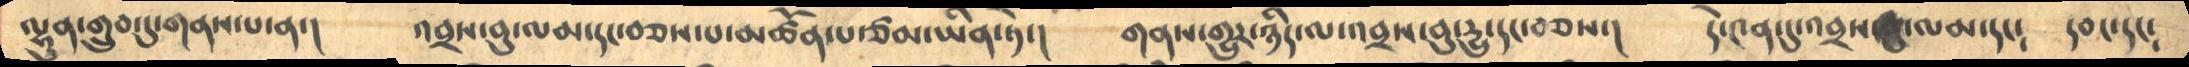ལྷུན་གྲུབ་དུ་གནས་པ་ན་།  འབྲས་བུ་ལམ་དང་བཅས་པ་མཚོན་པ་ཙམ་ཡིན་ཏེ་།  གནས་གྱུར་ཉིད་ལ་འབྲས་བུ་དྱུ་དང་བཅས་།  དེ་༤ན་དུ་འབྲས་ལམ་དང༴  དབང་དང༴
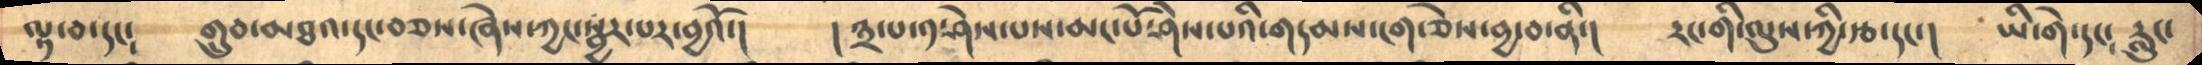ལྟ་བ་དང༴ གྲུབ་མཐའ་དང་བཅས་ཞེས་ཀྱང་སྦྱར་པར་བྱའོ་། །༣་པ་༡་ཤེས་པས་མང་པོ་ཤེས་པའི་གདམས་ངག་ཅེས་བྱ་བ་ནི་། རང་གི་ལུས་ཀྱི་རྩ་དང་། ཡི་གེ་དང༴ རླུང་
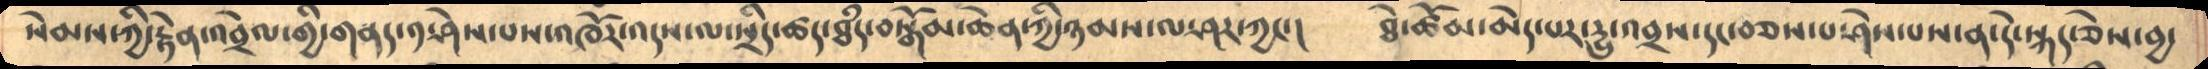སེམས་ཀྱི་རྟེན་འབྲེལ་གྱི་གནད་༡་ཤེས་པས་འཁོར་འདས་ལ་སྲིད་ཚད་ཐྃད་བསྒོམ་ཆེན་ཀྱི་ཉམས་ལ་ཤར་ཀྱང་། ཐེ་ཚོམ་མེད་པར་དྱུ་འབྲས་དང་བཅས་པ་ཤེས་པས་ན་དེ་སྐད་ཅེས་བྱ་
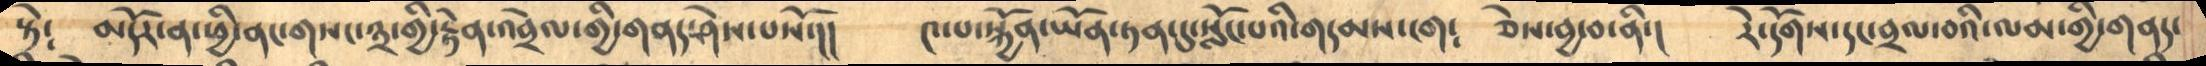སྟེ༴ མདོར་ན་ཕྱི་ནང་གསང་༣་གྱི་རྟེན་འབྲེལ་གྱི་གནད་ཤེས་པསོ་།།  ༤་པ་སྐྱོན་ཡོན་ཏན་དུ་སློང་པའི་གདམས་ངག༴ ཅེས་བྱ་བ་ནི་། རེ་དོགས་དང་བྲལ་བའི་ལམ་གྱི་གནད་
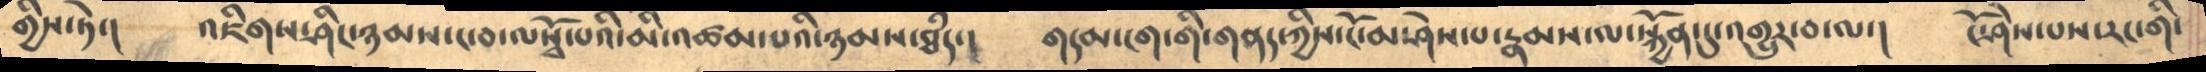གྱིས་ཏེ་། འཇིགས་ཤིང་ཉམས་ང་བ་ལསྭོ་པའི་མི་འཚམ་པའི་ཉམས་ཐྃད་།  གདམ་ངག་གི་གནད་ཀྱིས་ངོ་མ་ཤེས་པ་རྣམས་ལ་སྐྱོན་དུ་འགྱུར་བ་ལ་། ངོ་ཤེས་པས་རང་གི་
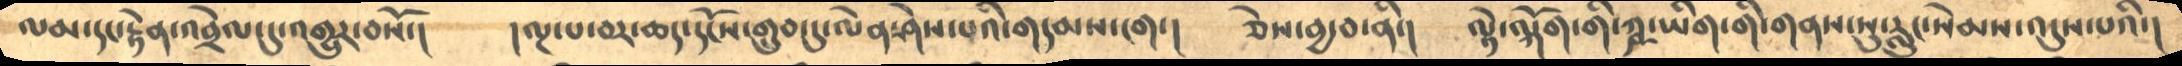ལམ་དང་རྟེན་འབྲེལ་དུ་འགྱུར་བསོ་།  །ལྔ་པ་བར་ཆད་དངོས་གྲུབ་དུ་ལེན་ཤེས་པའི་གདམས་ངག་། ཅེས་བྱ་བ་ནི་། ལྟེ་ལྐོག་གི་ཀྴ་ཡིག་གི་གནས་སུ་རླུང་སེམས་འདུས་པའི་།
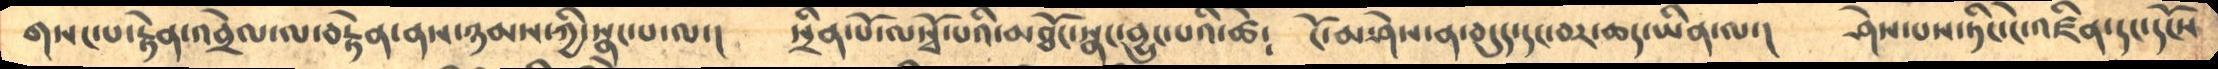གསང་པ་རྟེན་འབྲེལ་ལ་བརྟེན་ནས་ཉམས་ཀྱི་སྣང་པ་ལ་།  སྲིན་པོ་ལསྭོ་པའི་མཐོང་སྣང་བྱུང་པའི་ཚེ༴ ངོ་མ་ཤེས་ན་བདུད་དང་བར་ཆད་ཡིན་ལ་། ཤེས་པས་ཏིང་ངེ་འཛིན་དང་དངོས
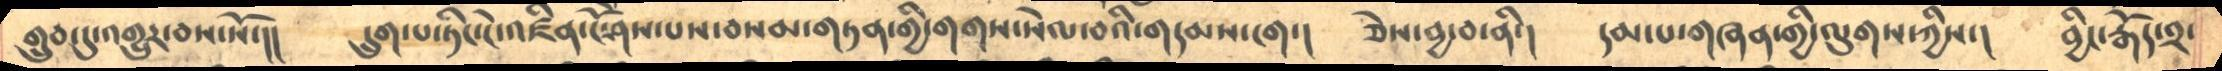གྲུབ་དུ་འགྱུར་བས་སོ་།།  དྲུག་པ་ཏིང་ངེ་འཛིན་ངོ་ཤེས་པས་བསམ་གཏན་གྱི་གགས་སེལ་བའི་གདམས་ངག་། ཅེས་བྱ་བ་ནི་། དམ་པ་གཞན་གྱི་ལུགས་ཀྱིས་། བྱིང་རྒོད་༢་
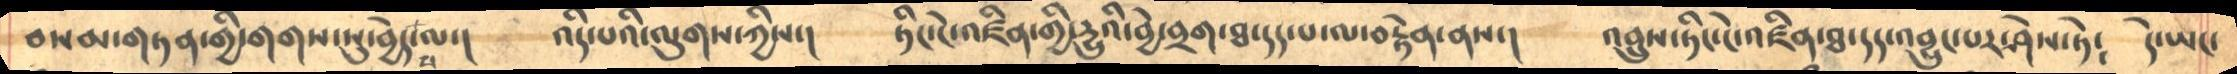བསམ་གཏན་གྱི་གགས་སུ་བྱེད་པ་ལ་།  འདི་པའི་ལུགས་ཀྱིས་།  ཏིང་ངེ་འཛིན་གྱི་དྱུའི་བྱེ་བྲག་ཐ་དད་པ་ལ་བརྟེན་ནས་།  འབྲུས་ཏིང་ངེ་འཛིན་ཐ་དད་འབྱུང་པར་ཤེས་ཏེ༴  དེ་ཡང་
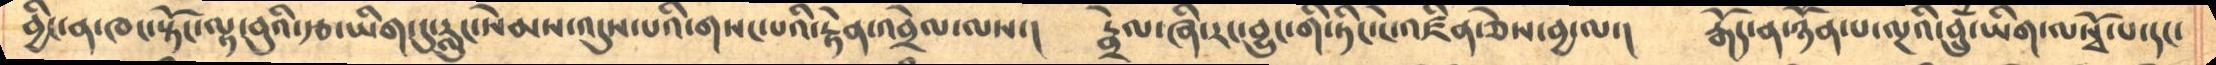བྱིང་ན་ཁང་སྟོང་ལྟ་བུའི་རྩ་ཡིག་དུ་རླུང་སེམས་འདུས་པའི་གསང་པའི་རྟེན་འབྲེལ་ལས་།    རྦྲེལ་ཞི་རང་བྱུང་གི་ཏིང་ངེ་འཛིན་ཅེས་བྱ་ལ་།  རྒོད་ན་ཉོན་པ་ལྔའི་བྲུཾ་ཡིག་ལསྭོ་པ་དང་
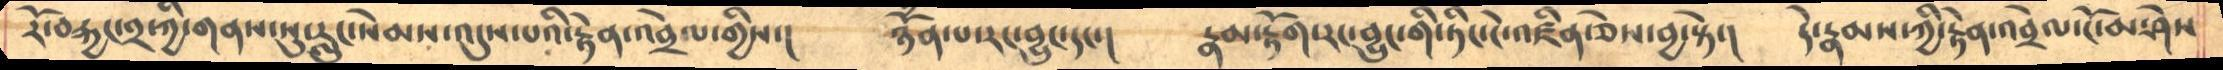རོ་བརྐྱང་༢་ཀྱི་གནས་སུ་རླུང་སེམས་འདུས་པའི་རྟེན་འབྲེལ་གྱིས་།     ཉོཾན་པ་རང་བྱུང་དང་།    རྣམ་རྟོག་རང་བྱུང་གི་ཏིང་ངེ་འཛིན་ཅེས་བྱ་སྟེ་།    དེ་རྣམས་ཀྱི་རྟེན་འབྲེལ་ངོ་མ་ཤེས
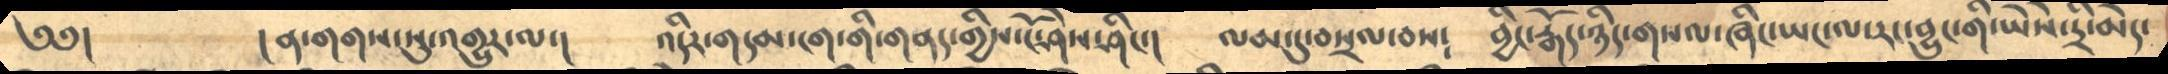༄༅།      ། ན་གགས་སུ་འགྱུར་ལ་།     འདིར་གདམ་ངག་གི་གནད་གྱིས་ངོ་ཤེས་ཤིང་།     ལམ་དུ་བསྲལ་བས༴     བྱིང་རྒོད་ཉིད་གསལ་ཞིང་ཡང་ལ་རང་བྱུང་གི་ཡཻས་དྲི་མེད་
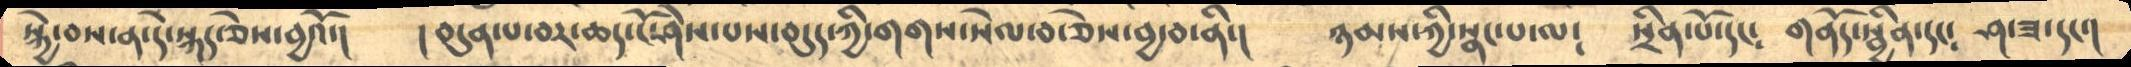སྐྱེ་བས་ན་དེ་སྐད་ཅེས་བྱའོ་།     ། བདུན་པ་བར་ཆད་ངོ་ཤེས་པས་བདུད་ཀྱི་གགས་སེལ་བ་ཅེས་བྱ་བ་ནི་།   ཉམས་ཀྱི་སྣང་པ་ལ༴    སྲིན་པོ་དང༴   གནོད་སྦྱིན་དང༴    ཤ་ཟ་དང་།
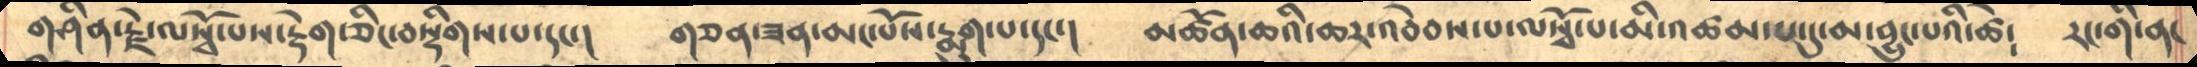གཤིན་རྗེ་ལསྭོ་པས་རྡེག་ཅིང་བསྡིགས་པ་དང་།      གཅན་ཟན་མང་པོས་རྨུག་པ་དང་།   མཚོན་ཆའི་ཆར་འབེབས་པ་ལསྭོ་པ་མི་འཚམ་པ་དུ་མ་བྱུང་པའི་ཚེ༴  རང་གི་ན་
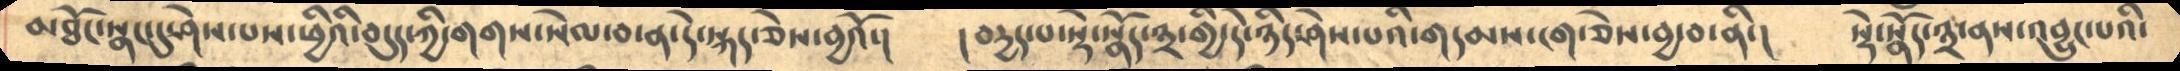མཐོང་སྣང་དུ་ཤེས་པས་ཕྱིའི་བདུད་ཀྱི་གགས་སེལ་བ་ན་དེ་སྐད་ཅེས་བྱའོ་།     ། བདྱད་པ་སྡེ་སྣོད་༣་གྱི་དེ་ཉིད་ཤེས་པའི་གདམས་ངག་ཅེས་བྱ་བ་ནི་།    སྡེ་སྣོད་༣་ནས་འབྱུང་པའི་
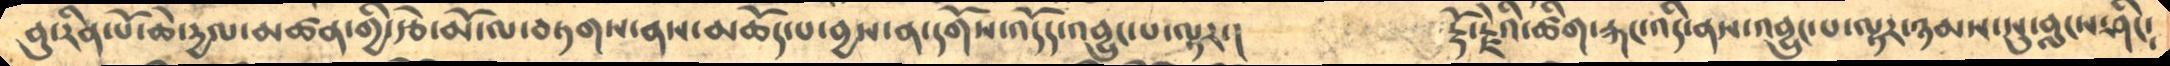བུ་རིན་པོ་ཆེ་དྱལ་མཚན་གྱི་རྩེ་མོ་ལ་བཏགས་ནས་མཆོད་པ་བྱས་ན་དགོས་འདོད་འབྱུང་པ་ལྟར་།      རྡོ་རྗེའི་ཚིག་རྐང་འདི་ནས་འབྱུང་པ་ལྟར་ཉམས་སུ་བླངས་ཤིང༴
